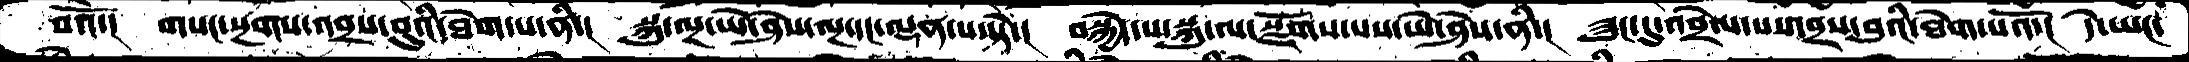བའོ་།  གསང་སྔགས་འབྲས་བུའི་ཐེག་པ་ནི་།  སྐུ་ལྔ་ཡེ་ཤེས་ལྔ་དང་ལྡན་པ་སྟེ་།  བསྐྱེད་པ་སྐུ་ལ་སྫོགས་པས་ཡེ་ཤེས་ནི་།  ཟུང་དུ་འབྲེལ་པ་འབྲས་བུའི་ཐེག་པའོ་།  དེ་ཡང་
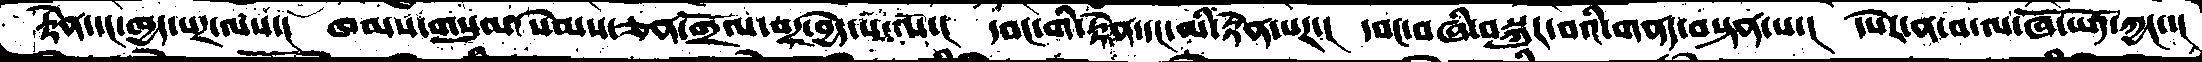རྟེན་དང་ཁྱད་པར་ལས་།  ཁམས་གསུམ་སེམས་ཅན་གྲོལ་བར་བྱེད་པ་ལ་།  དབང་གི་རྟེན་དང་མི་རྟེན་པར་།  དབང་བཞི་བསྐུར་བའི་གནད་བསྟན་པ་།  དཔེར་ན་བ་ལ་ཞོ་ཡོད་ཀྱང་་།
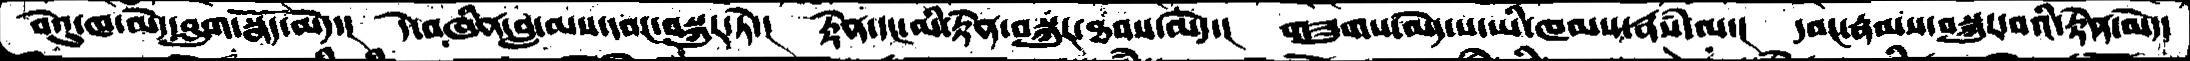བེའུ་ཁ་མེད་བླུག་སྣོད་མེད་།  དེ་བཞིན་བླ་མས་དབང་བསྐུར་ཏེ་།  རྟེན་དང་མི་རྟེན་བསྐུར་ཐབས་མེད་།  གཟུགས་མེད་པ་ཡི་ཁམས་རྣཾས་ལ་།  དབང་རྣམས་བསྐུར་བའི་རྟེན་མེད་
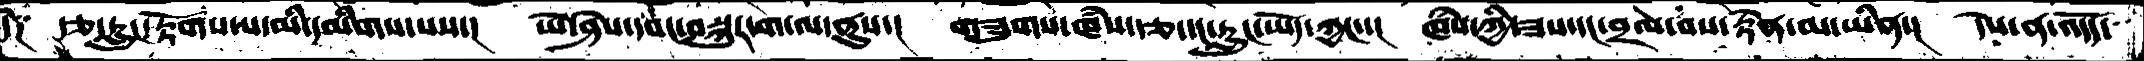དེ༑  རྩ་རླུང་རྟོགས་པ་མི་དམིགས་པས་།  ཡེ་ཤེས་དབང་བསྐུར་ག་ལ་ནུས་།  གཟུགས་ཁཾས་རྩ་དང་རླུང་ཡོད་ཀྱང་་།  ཁཾས་ཀྱི་ཟས་དང་བྲལ་བས་རྟེན་མ་ཡིན་།  དེས་ན་འདོོད་
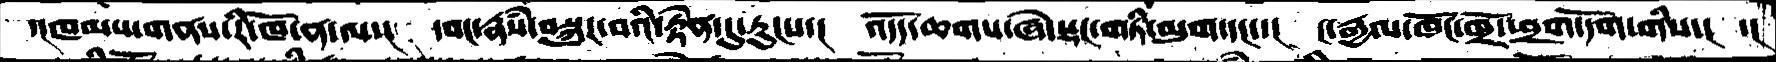་།ཁམས་གནས་རི་ཁོ་ན་ལ་།  དབང་རྣཾས་བསྐུར་བའི་རྟེན་དུ་རུངས་།  འདོད་ཆགས་ཞེ་སྡང་གཏི་མུག་དང་་།  ང་རྒྱལ་ཁོང་ཁྲོ་ཕྲག་དོག་གིས་།  ་།
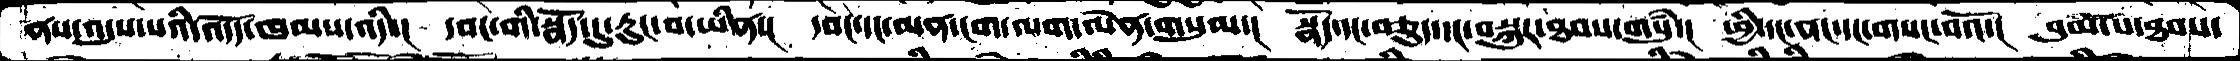ནས་འདུས་པའི་འདོད་ཁམས་འདི་།  དབང་གི་སྣོད་དུ་རུང་བ་ཡིན་།  དབང་དང་མན་ངག་ལག་ལེན་གསུམ་།  སྣོད་དང་བཅུད་དང་བསྐུར་ཐབས་གསུཾ་།  ཕྱི་དང་ནང་དང་གསང་བའོ་།  བུམ་པ་ཐབས་
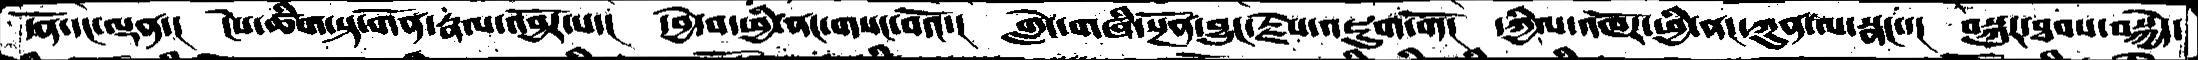དོན་དང་ལྡན་།  ངེས་ཚིག་སྟ་གོན་རྣལ་འབྱོར་པ་།  དབྱེ་བ་ཕྱི་ནང་གསང་བའོ་།  གླེང་གཞི་སྔོན་བྱུང་རྗེས་འཇུག་གོ།  དཀྱིལ་འཁོར་ཕྱི་ནང་ཀུན་ལ་སྣང་་།  བསྐུར་ཐབས་བསྐྱེད་
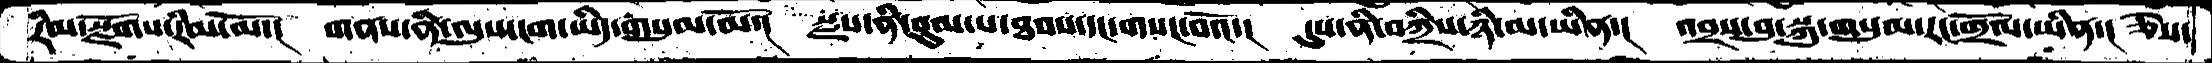རིམ་སྫོགས་རིམ་མོ་།  གནས་ནི་ལུས་ངག་ཡིད་གསུམ་མོ་།  སྫས་ནི་བུམ་པ་ཐབས་དང་གསང་བའོ་།  དུས་ནི་བཀྲིས་ཉི་མ་ཡིན་།  འབྲས་བུ་སྐུ་གསུམ་རང་གྲོལ་ཡིན་།  ཅེས་
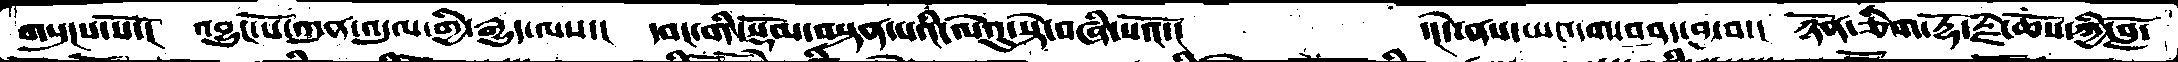གསུངས་སོ་།  འབྱུང་པོ་ཀུན་འདུལ་གྱི་རྒྱུད་ལས་།  དབང་གི་སྡོམ་བསྟན་པའི་ལེའུ་སྟེ་བཞི་པའོ་།     ་།དེ་ནས་ཡང་དག་བཤད་བྱ་བ་།  ཉོན་ཅིག་རྡོ་རྗེ་ཆོས་ཀྱི་བློ་
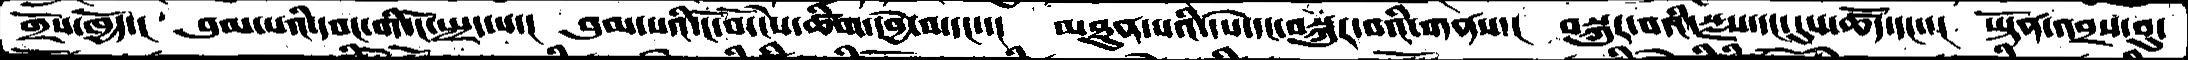གྲོས་ཁྱོད་།  བུམ་པའི་དབང་གི་ངོ་སྤྲད་པ་།  བུམ་པའི་ངོ་བོ་ངེས་ཚིག་དབྱེ་བ་དང་་།  མཐུན་པའི་དཔེ་དང་བསྐུར་བའི་གནས་།  བསྐུར་བའི་སྫས་དང་དུས་ཚོད་དང་་།  ཡྟོན་འབྲས་བུ་
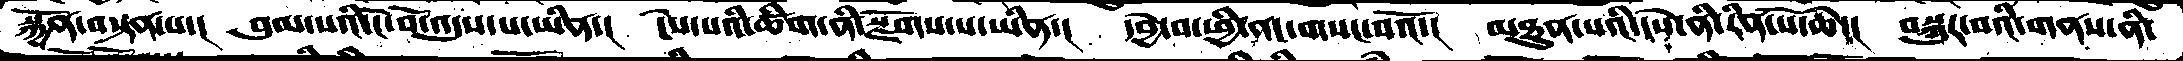སྐྱོན་བསྟན་པ་།  བུམ་པའི་ངོ་བོ་འདུས་པ་ཡིན་།  ངེས་པའི་ཚིག་ནི་སྫོགས་པ་ཡིན་།  དབྱེ་བ་ཕྱི་ནང་གསང་བའོ་།  མཐུན་པའི་དཔེ་ནི་རིན་པོ་ཆེ་།  བསྐུར་བའི་གནས་ནི་
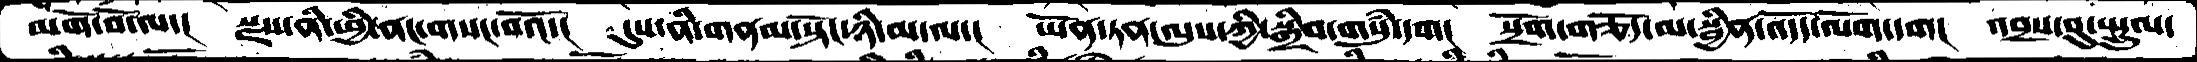མགོ་བོ་ལ་།  སྫས་ནི་ཕྱི་ནང་གསང་བའོ་།  དུས་ནི་གནམ་སྟོང་ཉི་མ་ལ་།  ཡོན་ཏན་ལུས་ཀྱི་སྒྲིབ་གསུཾ་དག།  སྲོག་གཅོད་མ་སྦྱིན་འདོད་ལོག་དག།  འབྲས་བུ་སྤྲུལ་
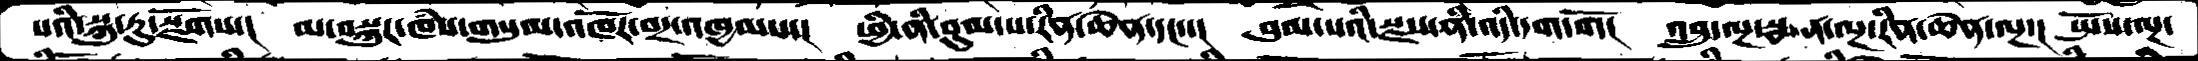པའི་སྐུ་རུ་སྫོགས་།  མ་བསྐུར་ཁཾས་གསུམ་འཁོར་བར་འཁྱམས་།  ཕྱི་ནི་བུམ་པ་རིན་ཆེན་དང་་།  བུམ་པའི་སྫས་ནི་འདི་དག་གོ།  འབྲུ་ལྔ་སྨན་ལྔ་རིན་ཆེན་ལྔ་།  སྤོས་ལྔ་
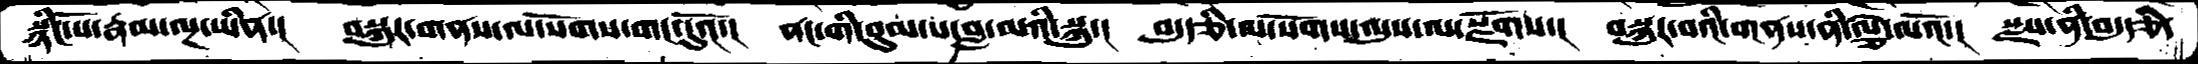སྙིང་པོ་རྣམ་ལྔ་ཡིན་།  བསྐུར་གནས་ལ་སོགས་གང་དུའོ་།  ནང་གི་བུམ་པ་བླ་མའི་སྐུ་།  བདུདཅི་ལ་སོགས་ལུས་ལ་སྫོགས་།  བསྐུར་བའི་གནས་ནི་ལྕེ་ལའོ་།  སྫས་ནི་བདུདཅི་
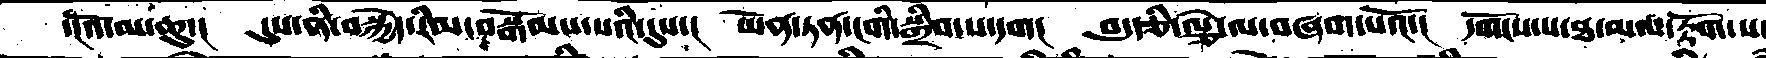་།འོ་མ་ཆུ་།  དུས་ནི་བསྐྱེད་རིམ་བསྒོམས་པའི་དུས་།  ཡོན་ཏན་ངགི་སྒྲིབ་པ་དག།  བདུད་ཅི་ལྕེ་ལ་བཞག་པའོ་།  དགོངས་པ་ཐ་མལ་རྟོག་པ་
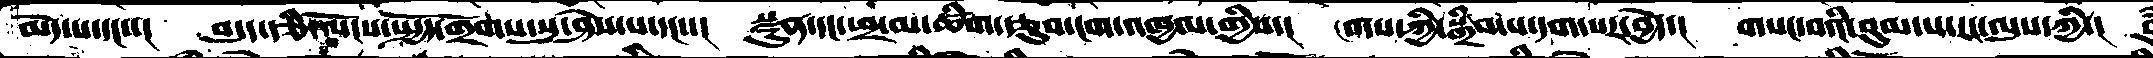མེད་པ་དང་་།  བདུད་རྩི་ལོངས་སྤྱོད་གྲོགས་སུ་ཤེས་པ་དང་་།  སྫུན་དང་ཕྲ་མ་ཚིག་རྩུབ་ངག་འཁྱལ་གྱིས་།  ངགས་ཀྱི་སྒྲིབ་པ་དག་པར་བྱེད་།  གསང་བའི་བུམ་པ་རང་ལུས་ཀྱི་།  བུཾ་
